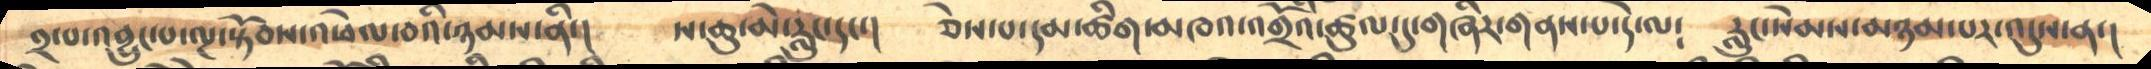༢་པ་འབྱུང་པ་ལྔ་སྟོབས་འཕེལ་བའི་ཉམས་ནི་།   ས་ཆུ་མེ་རླུང་དང་།   ཅེས་པ་དམ་ཚིག་མཁའ་འགྲོའི་ཚུལ་དུ་གཞིར་གནས་པ་དེ་ལ༴     རླུང་སེམས་མཉམ་པར་འདུས་ན་།
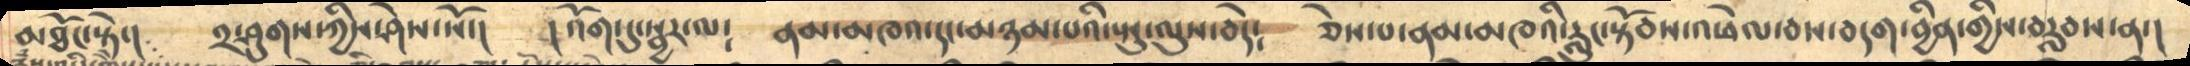མཐོང་སྟེ་།      ༢་ཤུགས་ཀྱིས་ཤེས་སོ་།     །འོག་དུ་སྦྱར་ལ༴    ནམ་མཁའ་དང་མཉམ་པའི་སྤུ་ལུས་བདེ༴    ཅེས་པ་ནམ་མཁའི་རླུང་སྟོབས་འཕེལ་བས་བདག་བྱིན་གྱིས་བརླབས་ན་།
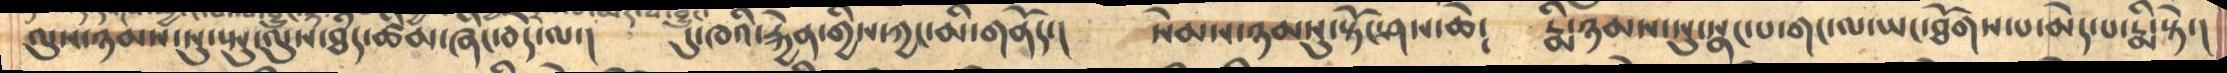ལུས་ཉམས་སུ་སྤུ་ལུས་ཐཾད་ཚིམ་ཞིང་བདེ་ལ་།   དུ་ཁའི་རྐྱེན་གྱིས་ཀྱང་མི་གནོད་།    སེམས་ཉམསུ་སྟོང་ཤས་ཆེ་   རྨི་ཉམས་སུ་སྣང་པ་གང་ལ་གང་ཐོགས་པ་མེད་པ་རྨི་སྟེ་།
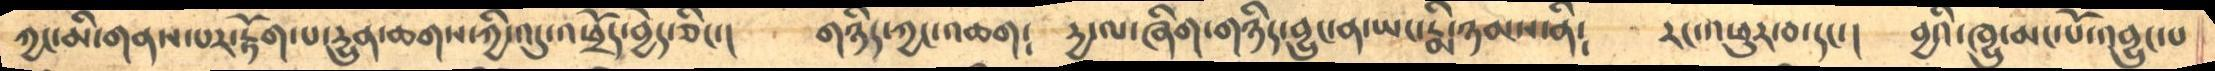ཀྱང་མི་གནས་པར་རྟོག་པ་དྱུན་ཆགས་ཀྱི་འདུ་འཕྲོད་བྱེད་ཅིང་།      གཉིད་ཀྱང་འཆག༴    དྱ་ལ་ཞིག་གཉིད་བྱུང་ན་ཡང་རྨི་ཉམས་ནི༴   རང་འཕུར་བ་དང་།    བྱའི་ཁྱུ་མང་པོ་འབྱུང་པ
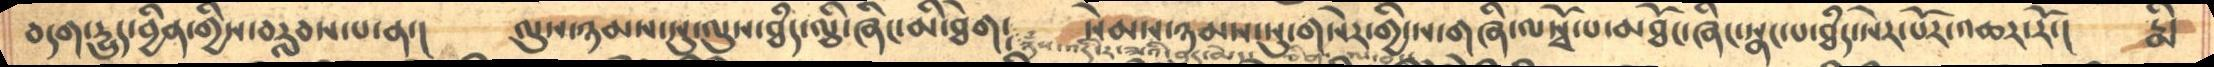བདག་དྱུད་བྱིན་གྱིས་བརླབ་པ་ན་།  ལུས་ཉམས་སུ་ལུས་ཐཾད་ལྕི་ཞིང་མི་ཐེག༴  སེམས་ཉམས་སུ་གསེར་གྱི་ས་གཞི་ལསྭོ་པ་མཐོང་ཞིང་སྣང་པ་ཐཾད་སེར་པོར་འཆར་རོ་།  རྨི་
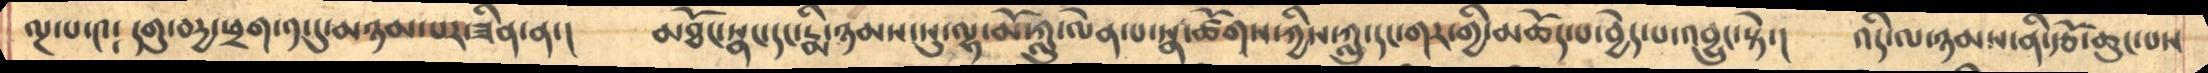ལྔ་པ་༤༴  དགུ་བདྱ་ཕྲག་༡་དུ་མཉམ་པར་ཟིན་ན་།    མཐོང་སྣང་དང་རྨི་ཉམས་སུ་ལྷ་མོ་ཀླུ་ལེན་པ་སྣ་ཚོགས་ཀྱིས་ཀླུ་དང་གར་གྱི་མཆོད་པ་བྱེད་པ་འབྱུང་སྟེ་།    འདི་ལ་ཉམས་ནི་རྩོ་ཆུང་པས
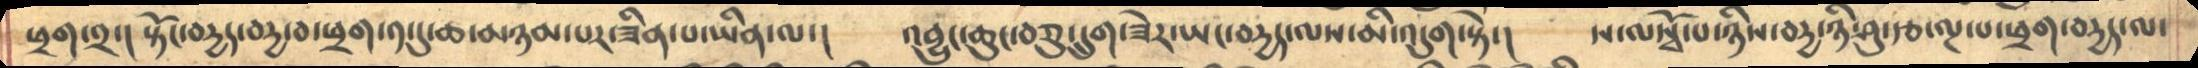ཕྱག་༢་། སྟོང་བདྱད་བདྱ་བ་ཕྲག་༡་དུ་ཆ་མཉམ་པར་ཟིན་པ་ཡིན་ལ་།    འབྱུང་ཆུང་བཅུ་དྲུག་ཟེར་ཡང་བདྱད་ལས་མི་འདུག་སྟེ་།    ས་ལསྭོ་པ་ཉིས་བདྱ་ཉི་ཤུ་རྩ་ལྔ་པ་ཕྲག་བདྱད་ལ་
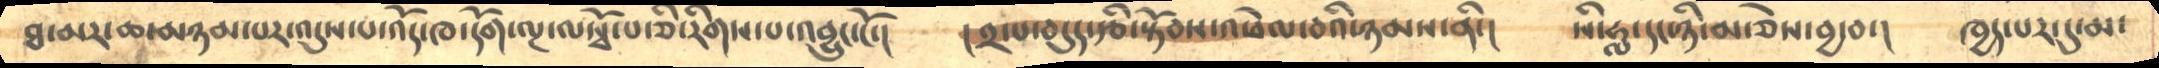ཐ་མར་ཆ་མཉམ་པར་འདུས་པ་འོད་ཁ་དོག་ལྔ་ལསྭོ་པ་ཅི་རིགས་པ་འབྱུང་ངོ་།      །༢་པ་བདུད་རྩི་སྟོབས་འཕེལ་བའི་ཉམས་ནི་།    སི་ཧླ་དང་ཉི་མ་ཅེས་བྱ་བ་།   ཁྱད་པར་དུ་མ་
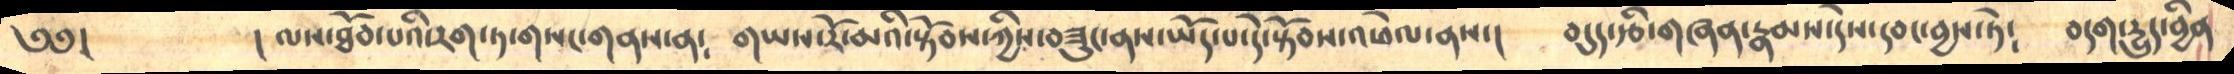༄༅།         །ལས་ཐོབ་པའི་རག་ཏ་གསང་གནས་ན༴    གཡས་རོ་མའི་སྟོབས་ཀྱིས་བཟུང་ནས་ཡོད་པ་དེ་སྟོབས་འཕེལ་ནས་།    བདུད་རྩི་གཞན་རྣམས་དེས་དབང་བྱས་ཏེ༴    བདག་དྱུད་བྱིན
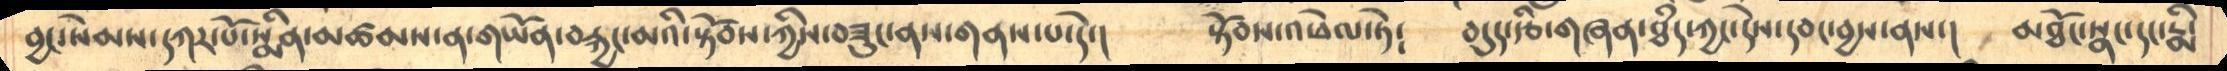བྱང་སེམས་དཀར་པོ་སྨིན་མཚམས་ན་གཡོན་བརྐྱང་མའི་སྟོབས་ཀྱིས་བཟུང་ནས་གནས་པ་དེ་།    སྟོབས་འཕེལ་ཏེ༴    བདུད་རྩི་གཞན་ཐཾད་ཀྱང་དེས་དབང་བྱས་ནས་།    མཐོང་སྣང་དང་རྨི་
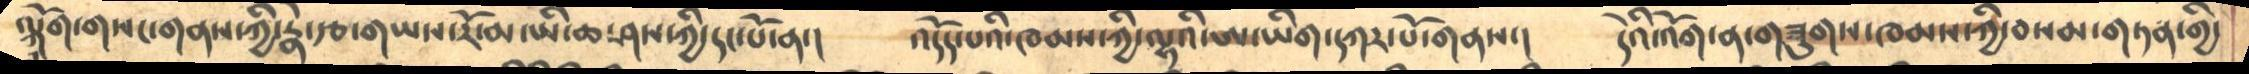ལྐོག་གསང་གནས་ཀྱི་རྣེ་རྩ་གཡས་རོ་མ་ཡི་ཆ་ཤས་ཀྱི་དང་པོ་ན་།     འདོད་པའི་ཁམས་ཀྱི་ལྷའི་ཨ་ཡིག་དཀར་པོ་གནས་།    དེའི་འོག་ན་གཟུགས་ཁམས་ཀྱི་བསམ་གཏན་གྱི་
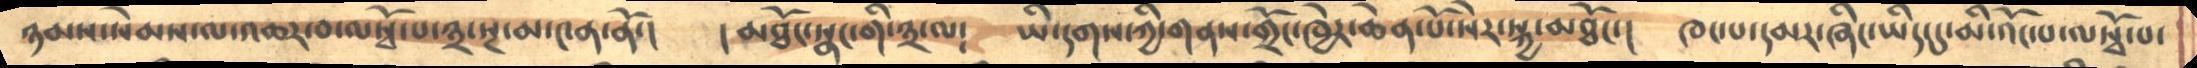ཉམས་སེམས་ལ་འཆར་བ་ལསྭོ་པ་༣་སྔ་མ་༤ན་ནོ་།    །མཐོང་སྣང་གི་༣་ལ༴    ཡི་དགས་ཀྱི་གནས་གྲོང་ཁྱེར་ཆེན་པོ་སེར་སྐྱ་མཐོང་།   ཁང་པ་དམར་ཞིང་ཡིད་དུ་མི་འོང་བ་ལསྭོ་པ་
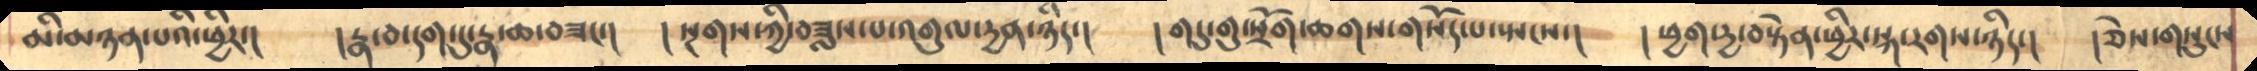མི་མཉན་པའི་ཕྱིར་།       །རྣ་བ་དག་དུ་རྣ་ཆ་བཟང་།     ། སྔགས་ཀྱི་བཟླས་པ་འགུལ་དྱན་ཉིད་།    ། གདུ་གུ་སྲོག་ཆགས་གསོད་པ་སྤངས་།   ། ཕྱག་དྱ་བསྟེན་ཕྱིར་སྐ་རགས་ཉིད་།   །ཅེས་གསུངས
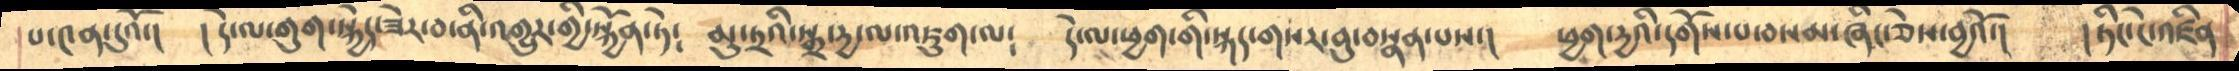པ་༤ན་དུའོ་།   ། དེ་ལ་གུག་སྐྱེད་ཟེར་བ་ནི་འགྱུར་གྱི་སྐྱོན་ཏེ༴   མུ་ཏྲའི་སྒྲ་དྱ་ལ་འཇུག་ལ༴    དེ་ལ་ཕྱག་གི་སྐད་གསར་བུ་བསྣན་པས་།    ཕྱག་དྱའི་དགོས་པ་བསམ་ཞིང་ཅེས་བྱའོ་།    །ཏིང་ངེ་འཛིན
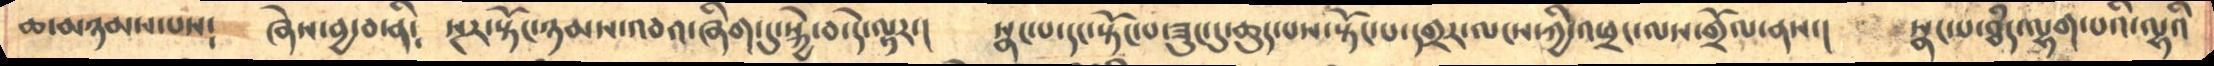ཆ་མཉམས་པས༴     ཞེས་བྱ་བ་ནི༴    སྔར་སྟོང་ཉམས་འབའ་ཞིག་དུ་སྐྱེ་བ་དེ་ལྟར་།    སྣང་པ་དང་སྟོང་པ་ཟུང་དུ་ཆུད་པས་སྟོང་པ་དགྲར་ལངས་ཀྱི་འཕྲང་ལས་གྲོལ་ནས་།    སྣང་པ་ཐཾད་ལྷག་པའི་ལྷའི
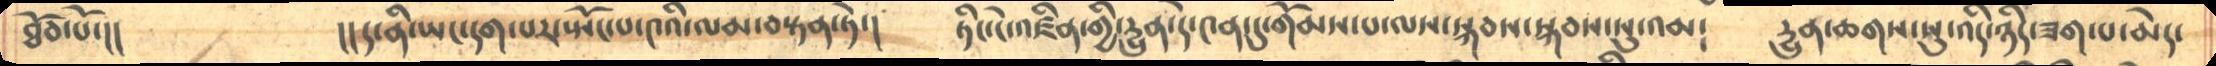ཐོབ་པོ་།།          །།ད་ནི་ཡང་དག་པར་སྤོང་པ་༤འི་ལམ་བསྟན་ཏེ་།     ཏིང་ངེ་འཛིན་གྱི་དྱུན་དེ་༤ན་དུ་གོམས་པ་ལས་སྐབས་སྐབས་སུ་འམ༴    དྱུན་ཆགས་སུ་འདི་ཉིད་ཟག་པ་མེད་
